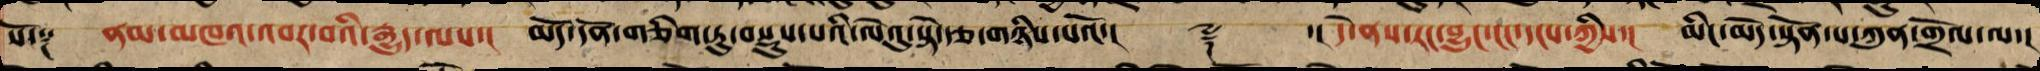སོ་༑ ནམ་མཁའ་འབར་བའི་རྒྱུད་ལས་། མདོ་དོན་གཅིག་ཏུ་བསྡུས་པའི་ལེའུ་སྟེ་ཉི་ཤུ་རྩ་གཉིས་པའོ་།། ༈ ་།། དེ་ནས་རང་བྱུང་ངང་དངས་ཀྱིས་། མིང་མེད་སྟོན་པ་ཀུན་གྲོལ་ལ་།
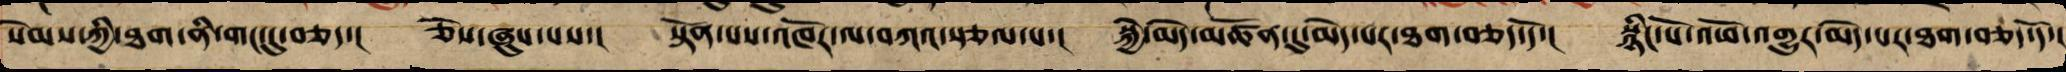སེམས་ཀྱི་ཐག་ནི་གང་དུ་བཅ་ད། ཅེས་ཞུས་པས་། སྟོན་པས་འཁོར་ལ་བཀའ་སྩལ་པ་། སྐྱེ་མེད་མཚོན་དུ་མེད་པར་ཐག་བཅད་དོ་། སྙིང་པོ་འཕོ་འགྱུར་མེད་པར་ཐག་བཅད་དོ་།
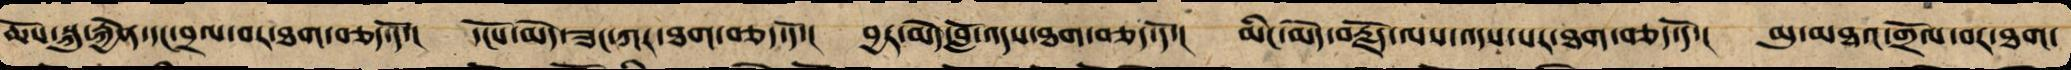ཆོས་སྐུ་རྐྱེན་དང་བྲལ་བར་ཐག་བཅད་དོ་། དངོས་མེད་ཟང་ཀར་ཐག་བཅད་དོ་། བྱར་མེད་བློ་འདས་ཐག་བཅད་དོ་། མིང་མེད་བརྗོད་ལས་འདས་པར་ཐག་བཅད་དོ་། མུ་མཐའ་གྲོལ་བར་ཐག་
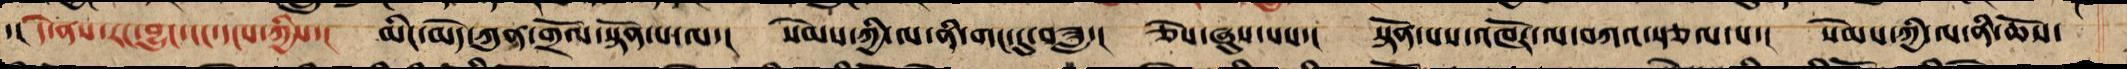་།། དེ་ནས་རང་བྱུང་ངང་དངས་ཀྱིས་། མིང་མེད་ཀུན་གྲོལ་སྟོན་པ་ལ་། སེམས་ཀྱི་ལ་ནི་གང་དུ་བཟླ་། ཅེས་ཞུས་པས་། སྟོན་པས་འཁོར་ལ་བཀའ་སྩལ་པ་། སེམས་ཀྱི་ལ་ནི་ཆོས་
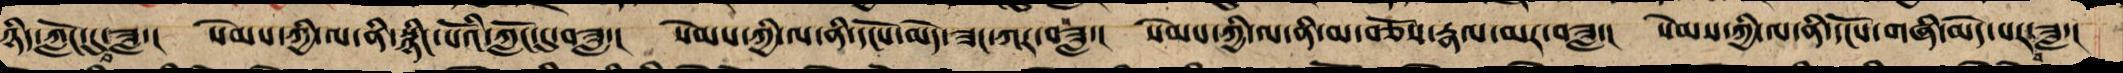ཉིད་ཀློང་དུ་བཟླ་། སེམས་ཀྱི་ལ་ནི་སྙིང་པོའི་ཀློང་དུ་བཟླ་། སེམས་ཀྱི་ལ་ནི་དངོས་མེད་ཟང་ཀར་བཟླ་། སེམས་ཀྱི་ལ་ནི་མ་བཅོས་རྣལ་མར་བཟླ་། སེམས་ཀྱི་ལ་ནི་དངོས་གཞི་མེད་པར་བཟླ་།
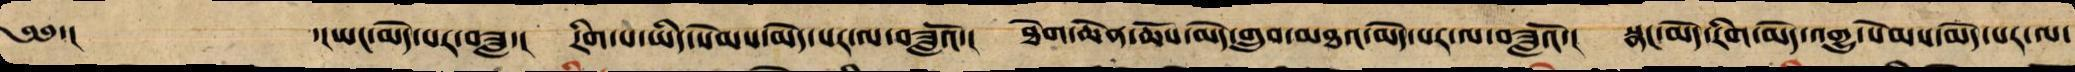༄༅་། ་།ཡང་མེད་པར་བཟླ་། རིག་པ་ཡིད་སེམས་མེད་པར་ལ་བཟླའོ་། ཐེག་ཆེན་ཆོས་མེད་གྲུབ་མཐའ་མེད་པར་ལ་བཟླའོ་། སྣང་མེད་རིག་མེད་འགྱུ་སེམས་མེད་པར་ལ་
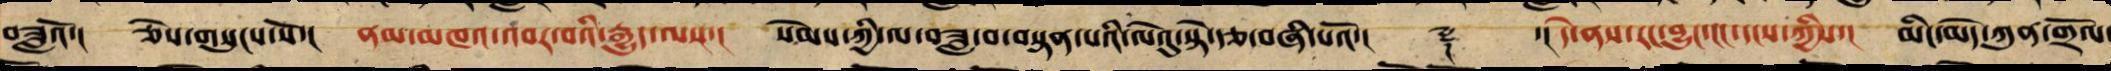བཟླའོ་། ཅེས་གསུངས་སོ་། ནམ་མཁའ་འབར་བའི་རྒྱུད་ལས་། སེམས་ཀྱི་ལ་བཟླ་བ་བསྟན་པའི་ལེའུ་སྟེ་རྩ་བཞི་པའོ་།། ༈ ་།། དེ་ནས་རང་བྱུང་ངང་དངས་ཀྱིས་། མིང་མེད་ཀུན་གྲོལ་
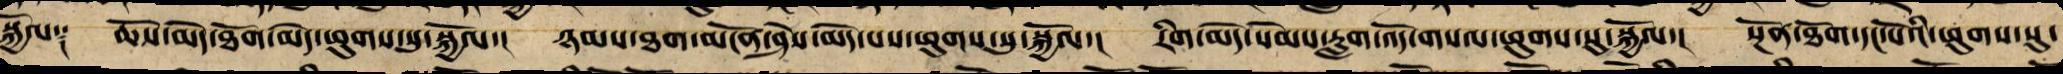སྐྱོལ༑ ཆོས་མེད་ཐེག་མེད་ཕུགས་སུ་སྐྱོལ་། ཉམས་རྟོགས་མངོན་ཤེས་མེད་པའི་ཕུགས་སུ་སྐྱོལ་། རིགས་མེད་སེམས་རླག་འོད་གསལ་ཕུགས་སུ་སྐྱོལ་། སྔོན་ཐོག་དང་པོའི་ཕུགས་སུ་
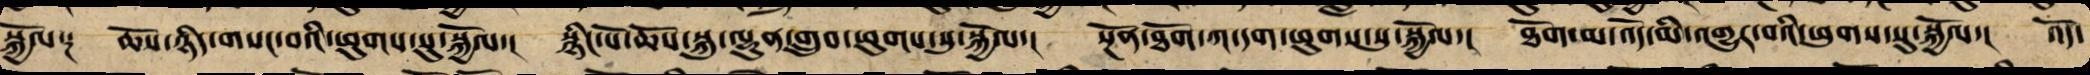སྐྱོལ་། ཆོས་ཉིད་གསང་བའི་ཕུགས་སུ་སྐྱོལ་། སྙིང་པོ་ཆོས་སྐུ་ལྷུན་གྲུབ་ཕུགས་སུ་སྐྱོལ་། སྔོན་ཐོག་ཀ་དག་ཕུགས་སུ་སྐྱོལ་། ཐོག་མ་འོད་མི་འགྱུར་བའི་ཕུགས་སུ་སྐྱོལ་། འོད་
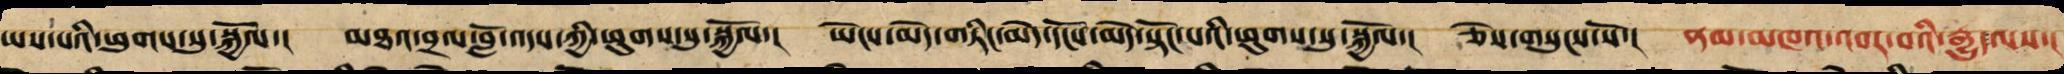ཡས་པའི་ཕུགས་སུ་སྐྱོལ་། མཐའ་བྲལ་བློ་འདས་ཀྱི་ཕུགས་སུ་སྐྱོལ་། ཡེངས་མེད་གཏིང་མེད་དངོས་མེད་སྟོང་པའི་ཕུགས་སུ་སྐྱོལ་། ཅེས་གསུངས་སོ་། ནམ་མཁའ་འབར་བའི་རྒྱུད་ལས་།
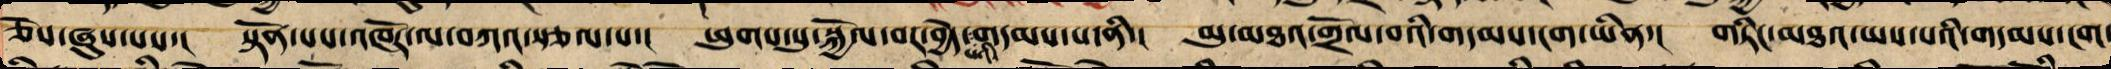ཅེས་ཞུས་པས་། སྟོན་པས་འཁོར་ལ་བཀའ་སྩལ་པ་། ཕུགས་སུ་སྐྱོལ་བར་བྱེད་པའི་གདམས་པ་ནི་། མུ་མཐའ་གྲོལ་བའི་གདམས་ངག་ཡིན་། གཏིང་མཐའ་ཡས་པའི་གདམས་ངག་
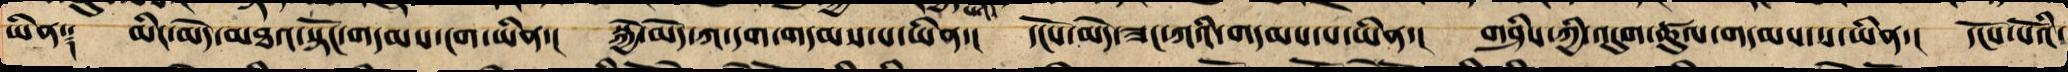ཡིན༑ མིང་མེད་མཐའ་སྟོང་གདམས་ངག་ཡིན་། སྐྱེ་མེད་ཀ་དག་གདམས་པ་ཡིན་། དངོས་མེད་ཟང་ཀའི་གདམས་པ་ཡིན་། གཤིས་ཀྱི་འདུག་ཚུལ་གདམས་པ་ཡིན་། དངོས་པོའི་
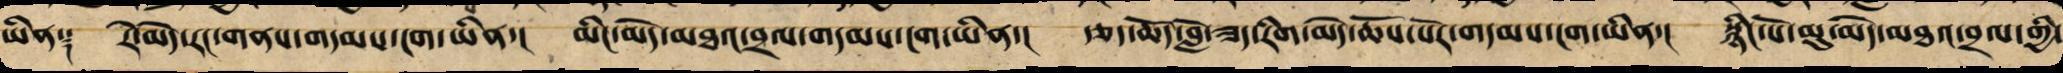ཡིན༑ རེ་མེད་རང་གནས་གདམས་ངག་ཡིན་། མིང་མེད་མཐའ་བྲལ་གདམས་ངག་ཡིན་། རྩད་ཆོད་བློ་འདས་རིག་མེད་ཆོས་སྐོར་གདམས་ངག་ཡིན་། སྙིང་པོ་མུ་མེད་མཐའ་བྲལ་གྱི་
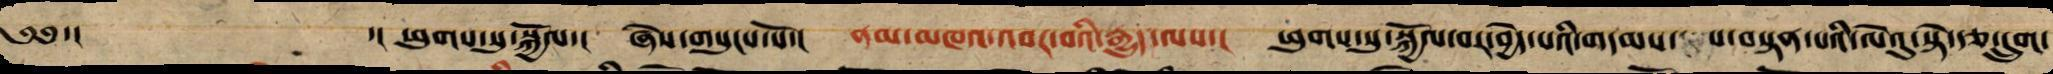༄༅་། ་། ཕུགས་སུ་སྐྱོལ་། ཞེས་གསུངས་སོ་། ནམ་མཁའ་འབར་བའི་རྒྱུད་ལས་། ཕུགས་སུ་སྐྱོལ་བར་བྱེད་པའི་གདམས་པ་བསྟན་པའི་ལེའུ་སྟེ་རྩ་དྲུག་
